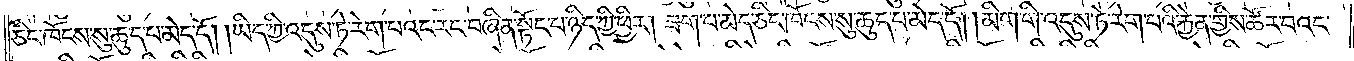ཅིང་ཁོངས་སུ་ཆུད་པ་མེད་དོ། །ཡིད་ཀྱི་འདུས་ཏེ་རེག་པའང་རང་བཞིན་སྟོང་པ་ཉིད་ཀྱི་ཕྱིར། ཟག་པ་མེད་ཅིང་ཁོངས་སུ་ཆུད་པ་མེད་དོ། །མིག་གི་འདུས་ཏེ་རེག་པའི་རྐྱེན་གྱིས་ཚོར་བའང་
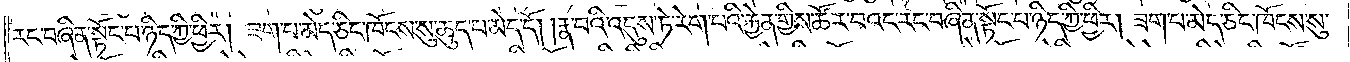རང་བཞིན་སྟོང་པ་ཉིད་ཀྱི་ཕྱིར། ཟག་པ་མེད་ཅིང་ཁོངས་སུ་ཆུད་པ་མེད་དོ། །རྣ་བའི་འདུས་ཏེ་རེག་པའི་རྐྱེན་གྱིས་ཚོར་བའང་རང་བཞིན་སྟོང་པ་ཉིད་ཀྱི་ཕྱིར། ཟག་པ་མེད་ཅིང་ཁོངས་སུ་
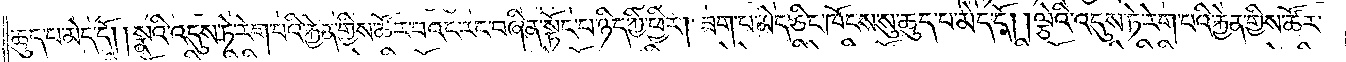ཆུད་པ་མེད་དོ། །སྣའི་འདུས་ཏེ་རེག་པའི་རྐྱེན་གྱིས་ཚོར་བའང་རང་བཞིན་སྟོང་པ་ཉིད་ཀྱི་ཕྱིར། ཟག་པ་མེད་ཅིང་ཁོངས་སུ་ཆུད་པ་མེད་དོ། །ལྕེའི་འདུས་ཏེ་རེག་པའི་རྐྱེན་གྱིས་ཚོར་
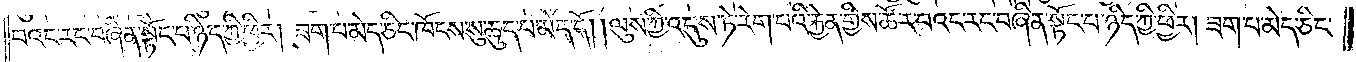བའང་རང་བཞིན་སྟོང་པ་ཉིད་ཀྱི་ཕྱིར། ཟག་པ་མེད་ཅིང་ཁོངས་སུ་ཆུད་པ་མེད་དོ། །ལུས་ཀྱི་འདུས་ཏེ་རེག་པའི་རྐྱེན་གྱིས་ཚོར་བའང་རང་བཞིན་སྟོང་པ་ཉིད་ཀྱི་ཕྱིར། ཟག་པ་མེད་ཅིང་
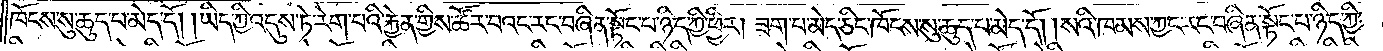ཁོངས་སུ་ཆུད་པ་མེད་དོ། །ཡིད་ཀྱི་འདུས་ཏེ་རེག་པའི་རྐྱེན་གྱིས་ཚོར་བའང་རང་བཞིན་སྟོང་པ་ཉིད་ཀྱི་ཕྱིར། ཟག་པ་མེད་ཅིང་ཁོངས་སུ་ཆུད་པ་མེད་དོ། །སའི་ཁམས་ཀྱང་རང་བཞིན་སྟོང་པ་ཉིད་ཀྱི་
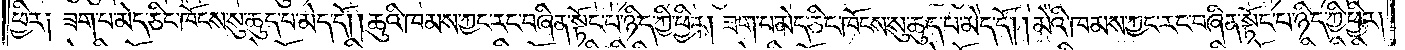ཕྱིར༑ ཟག་པ་མེད་ཅིང་ཁོངས་སུ་ཆུད་པ་མེད་དོ། །ཆུའི་ཁམས་ཀྱང་རང་བཞིན་སྟོང་པ་ཉིད་ཀྱི་ཕྱིར། ཟག་པ་མེད་ཅིང་ཁོངས་སུ་ཆུད་པ་མེད་དོ། །མེའི་ཁམས་ཀྱང་རང་བཞིན་སྟོང་པ་ཉིད་ཀྱི་ཕྱིར།
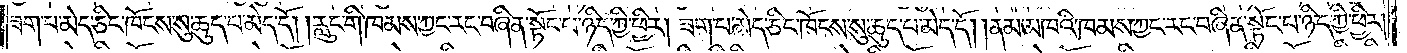ཟག་པ་མེད་ཅིང་ཁོངས་སུ་ཆུད་པ་མེད་དོ། །རླུང་གི་ཁམས་ཀྱང་རང་བཞིན་སྟོང་པ་ཉིད་ཀྱི་ཕྱིར། ཟག་པ་མེད་ཅིང་ཁོངས་སུ་ཆུད་པ་མེད་དོ། །ནམ་མཁའི་ཁམས་ཀྱང་རང་བཞིན་སྟོང་པ་ཉིད་ཀྱི་ཕྱིར།
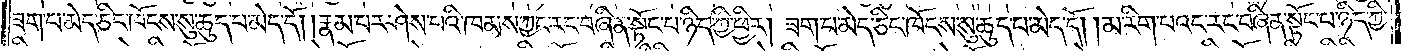ཟག་པ་མེད་ཅིང་ཁོངས་སུ་ཆུད་པ་མེད་དོ། །རྣམ་པར་ཤེས་པའི་ཁམས་ཀྱང་རང་བཞིན་སྟོང་པ་ཉིད་ཀྱི་ཕྱིར། ཟག་པ་མེད་ཅིང་ཁོངས་སུ་ཆུད་པ་མེད་དོ། །མ་རིག་པའང་རང་བཞིན་སྟོང་པ་ཉིད་ཀྱི་
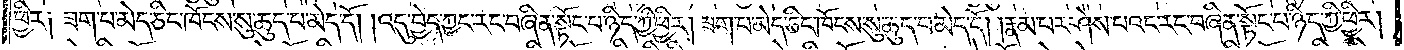ཕྱིར༑ ཟག་པ་མེད་ཅིང་ཁོངས་སུ་ཆུད་པ་མེད་དོ། །འདུ་བྱེད་ཀྱང་རང་བཞིན་སྟོང་པ་ཉིད་ཀྱི་ཕྱིར། ཟག་པ་མེད་ཅིང་ཁོངས་སུ་ཆུད་པ་མེད་དོ། །རྣམ་པར་ཤེས་པའང་རང་བཞིན་སྟོང་པ་ཉིད་ཀྱི་ཕྱིར།
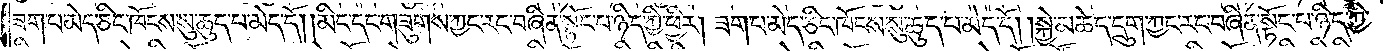ཟག་པ་མེད་ཅིང་ཁོངས་སུ་ཆུད་པ་མེད་དོ། །མིང་དང་གཟུགས་ཀྱང་རང་བཞིན་སྟོང་པ་ཉིད་ཀྱི་ཕྱིར། ཟག་པ་མེད་ཅིང་ཁོངས་སུ་ཆུད་པ་མེད་དོ། །སྐྱེ་མཆེད་དྲུག་ཀྱང་རང་བཞིན་སྟོང་པ་ཉིད་ཀྱི་
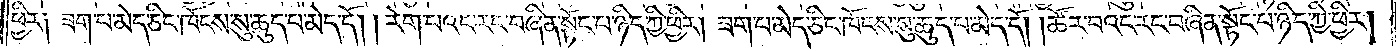ཕྱིར༑ ཟག་པ་མེད་ཅིང་ཁོངས་སུ་ཆུད་པ་མེད་དོ། །རེག་པའང་རང་བཞིན་སྟོང་པ་ཉིད་ཀྱི་ཕྱིར། ཟག་པ་མེད་ཅིང་ཁོངས་སུ་ཆུད་པ་མེད་དོ། །ཚོར་བའང་རང་བཞིན་སྟོང་པ་ཉིད་ཀྱི་ཕྱིར།
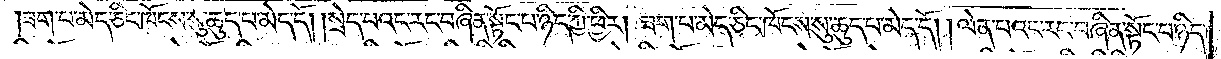ཟག་པ་མེད་ཅིང་ཁོངས་སུ་ཆུད་པ་མེད་དོ། །སྲེད་པའང་རང་བཞིན་སྟོང་པ་ཉིད་ཀྱི་ཕྱིར། ཟག་པ་མེད་ཅིང་ཁོངས་སུ་ཆུད་པ་མེད་དོ། །ལེན་པའང་རང་བཞིན་སྟོང་པ་ཉིད་
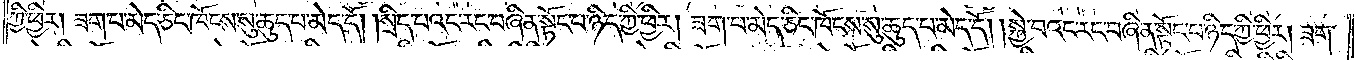ཀྱི་ཕྱིར། ཟག་པ་མེད་ཅིང་ཁོངས་སུ་ཆུད་པ་མེད་དོ། །སྲིད་པའང་རང་བཞིན་སྟོང་པ་ཉིད་ཀྱི་ཕྱིར། ཟག་པ་མེད་ཅིང་ཁོངས་སུ་ཆུད་པ་མེད་དོ། །སྐྱེ་བའང་རང་བཞིན་སྟོང་པ་ཉིད་ཀྱི་ཕྱིར། ཟག་
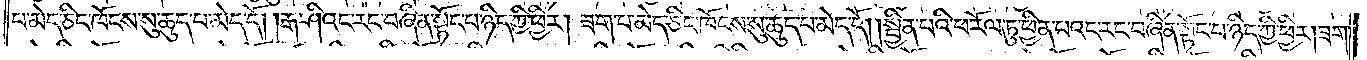པ་མེད་ཅིང་ཁོངས་སུ་ཆུད་པ་མེད་དོ། །རྒ་ཤིའང་རང་བཞིན་སྟོང་པ་ཉིད་ཀྱི་ཕྱིར། ཟག་པ་མེད་ཅིང་ཁོངས་སུ་ཆུད་པ་མེད་དོ། །སྦྱིན་པའི་ཕ་རོལ་ཏུ་ཕྱིན་པའང་རང་བཞིན་སྟོང་པ་ཉིད་ཀྱི་ཕྱིར། ཟག་
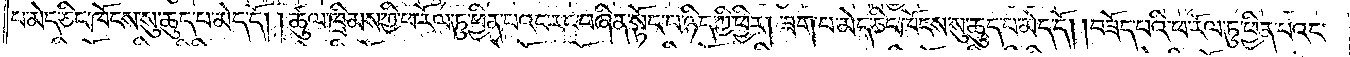པ་མེད་ཅིང་ཁོངས་སུ་ཆུད་པ་མེད་དོ། །ཚུལ་ཁྲིམས་ཀྱི་ཕ་རོལ་ཏུ་ཕྱིན་པའང་རང་བཞིན་སྟོང་པ་ཉིད་ཀྱི་ཕྱིར། ཟག་པ་མེད་ཅིང་ཁོངས་སུ་ཆུད་པ་མེད་དོ། །བཟོད་པའི་ཕ་རོལ་ཏུ་ཕྱིན་པའང་
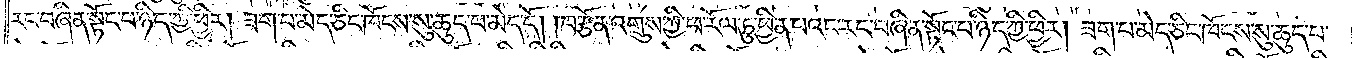རང་བཞིན་སྟོང་པ་ཉིད་ཀྱི་ཕྱིར། ཟག་པ་མེད་ཅིང་ཁོངས་སུ་ཆུད་པ་མེད་དོ། །བརྩོན་འགྲུས་ཀྱི་ཕ་རོལ་ཏུ་ཕྱིན་པའང་རང་བཞིན་སྟོང་པ་ཉིད་ཀྱི་ཕྱིར། ཟག་པ་མེད་ཅིང་ཁོངས་སུ་ཆུད་པ་
